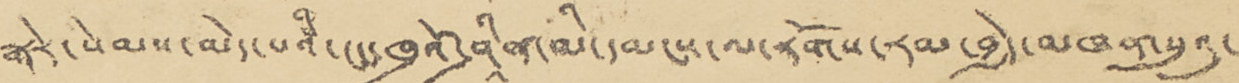སྒེར་སེམས་མེད་པའི་ངང་ཁྲའོ་ཤཱིན་མི་དམངས་ལ་རོགས་རམ་བྱེད་མཁན་སུའུ་
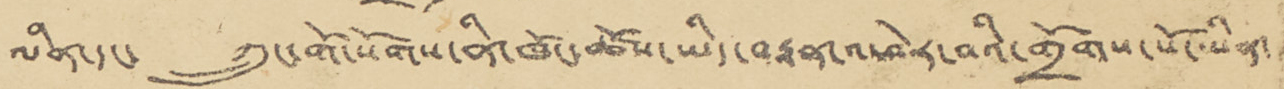ལིན་དང་ ཀྲུང་གོ་སོགས་ནི་ཁོང་ཚོས་ཡིད་བརྟན་འཕེར་བའི་གྲོགས་པོ་ཡིན་
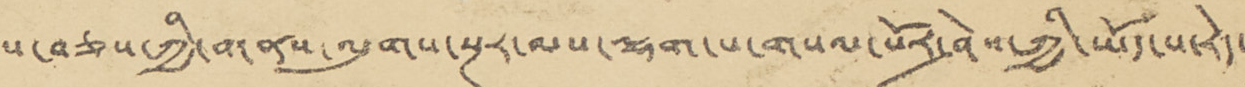པ་བཅས་ཀྱི་གནས་ལུགས་སྔར་ལས་ལྷག་པ་གསལ་པོར་ཤེས་ཀྱི་ཡོད་པ་རེད་།
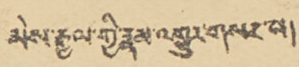མེས་རྒྱལ་གྱི་རྣམ་འགྱུར་གསར་པ་།
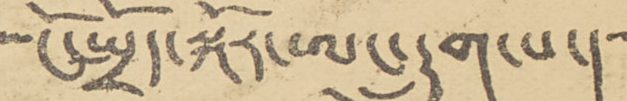ངོ་སྤྲོད་སྐོར་ཨང་དྲུག་པ་།
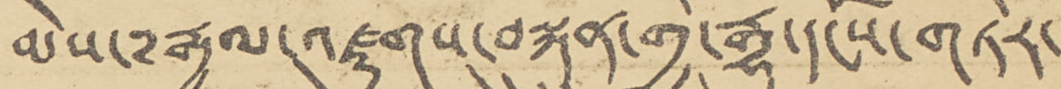མེས་༸རྒྱལ་འཛུགས་བསྐྲུན་གྱི་རྒྱུ་དངོས་གཏེར་
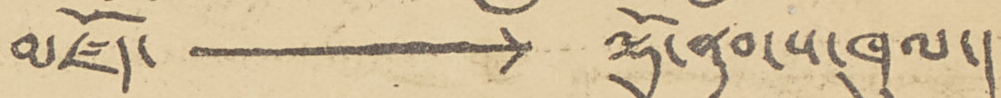མཛོད་⟶ལྷོ་ནུབ་ས་ཁུལ་།
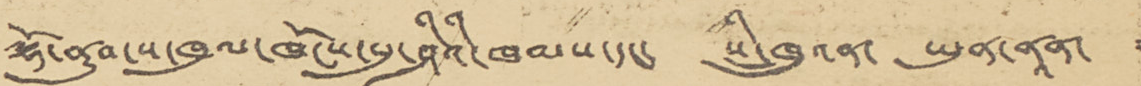ལྷོ་ནུབ་ས་ཁུལ་ཁོངས་སུ་ཤིའི་ཁམས་དང་ སི་ཁྲུའན་ ཡུན་ནཱན་
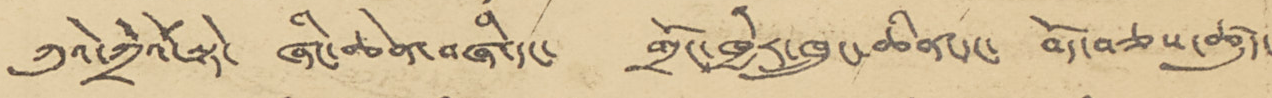ཀུའེ་ཀྲེའོ་སྟེ་ ཞིང་ཆེན་བཞི་དང་ གྲོང་ཁྱེར་ཁྲུང་ཆིན་དང་ བོད་བཅས་ཚུད་
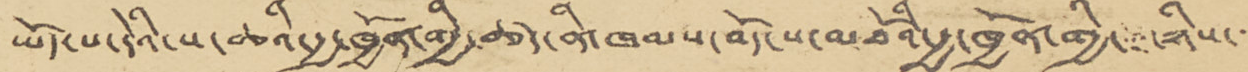ཡོད་པ་དེའི་ས་ཆའི་རྒྱ་ཁྱོན་གྱི་ཚད་ནི་ཁམས་བོད་ས་མཐོའི་རྒྱ་ཁྱོན་གྱི་་་ཉིས་་་
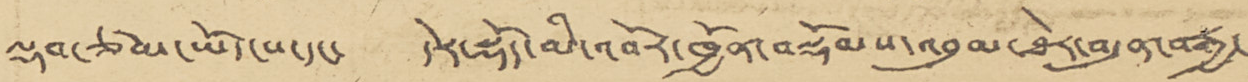ལྡབ་ཙམ་ཡོད་པ་དང་ དེར་སྡོད་མི་འབོར་ཁྱོན་བསྡོམས་འབུམ་ཐེར་བདུན་བརྒྱ་
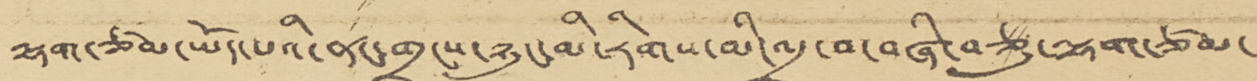ལྷག་ཙམ་ཡོད་པའི་ནང་གྲངས་ཉུང་མི་རིགས་མི་འདྲ་བ་བཞི་བཅུ་ལྷག་ཙམ་
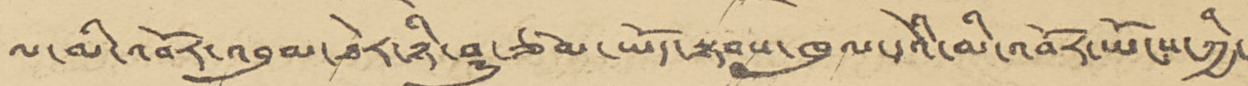ལ་མི་འབོར་འབུམ་ཐེར་ཉི་ཤུ་ཙམ་ཡོད་སྟབས་ཁུལ་དེའི་མི་འབོར་ཡོངས་ཀྱི་
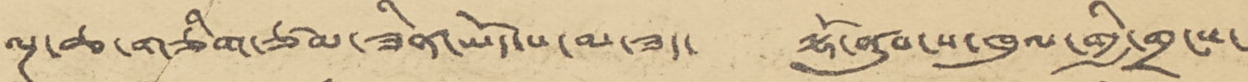ལྔ་ཆ་གཅིག་ཙམ་ཟིན་ཡོད་པ་མ་ཟད་ ལྷོ་ནུབ་ས་ཁུལ་གྱི་གྲངས་
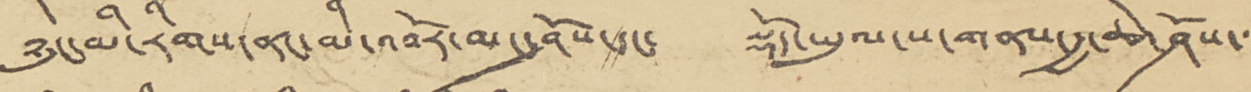ཉུང་མི་རིགས་ནང་མི་འབོར་མང་ཤོས་དང་ སྡོད་ཡུལ་ས་གནས་རྒྱ་ཆེ་ཤོས་་་
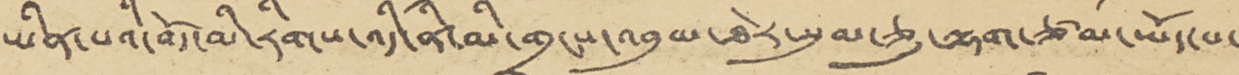ཡིན་པའི་བོད་མི་རིགས་འདི་ནི་མི་གྲངས་འབུམ་ཐེར་སུམ་ཅུ་ལྷག་ཙམ་ཡོད་པ་
